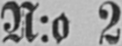N:o 2
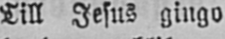Till Jesus gingo
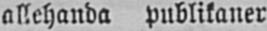allehanda publikaner
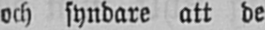och syndare att de
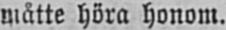måtte höra honom.
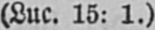(Luc. 15: 1.)
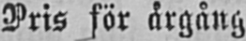Pris för årgång
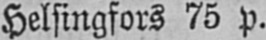Helsingfors 75 p.
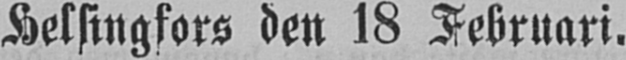Helsingfors den 18 Februari.
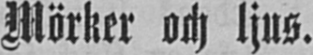Mörker och ljus.
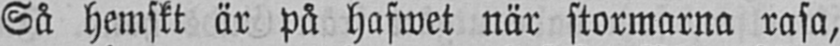Så hemskt är på hafwet när stormarna rasa,
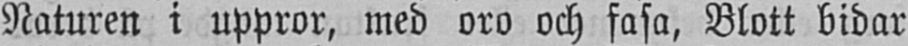Naturen i uppror, med oro och fasa, Blott bidar
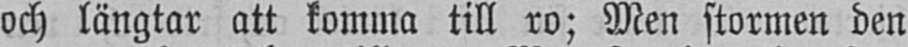och längtar att komma till ro; Men stormen den
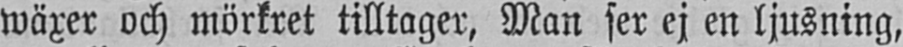wäxer och mörkret tilltager, Man ser ej en ljusning,
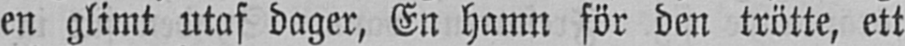en glimt utaf dager, En hamn för den trötte, ett
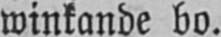winkande bo.
